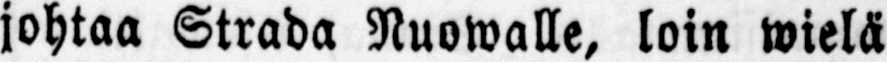johtaa Strada Nuowalle, loin wielä
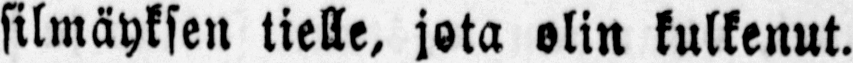silmäyksen tielle, jota olin kulkenut.
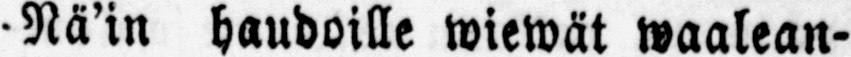-Nä'in haudoille wiewät waalean-
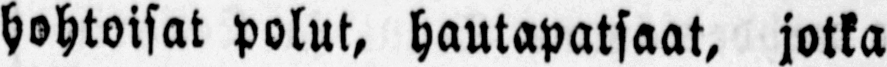hohtoisat polut, hautapatsaat, jotka
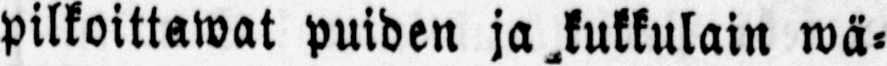pilkoittawat puiden ja Kukkulain wä-
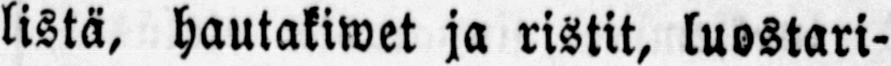listä, hautakiwet ja ristit, luostari-
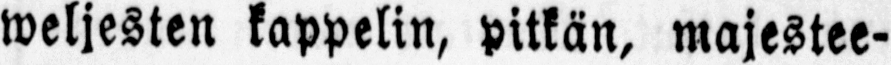weljesten kappelin, pitkän, majestee-
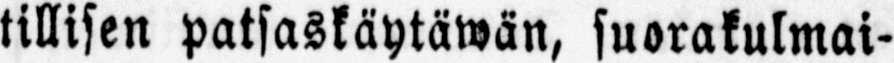tilleen patsaskäytäwän, suorakulmai-
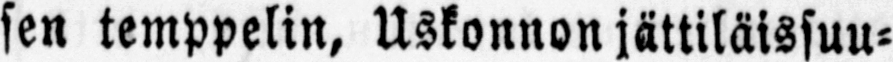sen temppelin, Uskonnon jättiläissuu-
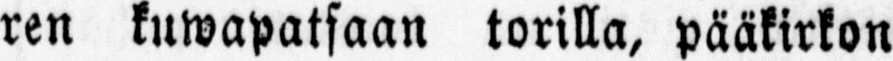ren kuwapatsaan torilla, pääkirkon
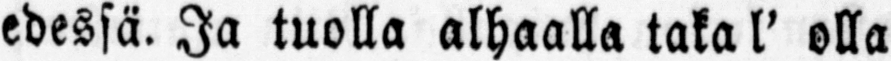edessä. Ja tuolla alhaalla taka l' olla
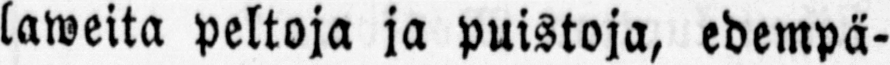laweita peltoja ja puistoja, edempä-
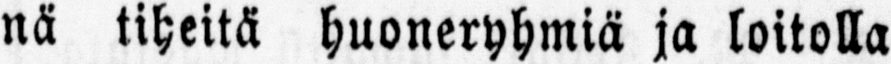nä tiheitä huoneryhmiä ja loitolla
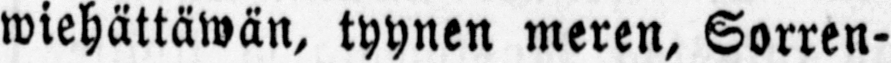wiehättäwän, tyynen meren, Sorren-
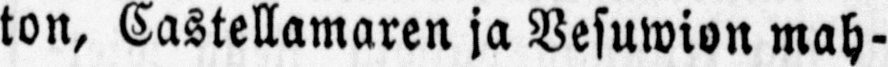ton, Castellamaren ja Vesuwion mah-
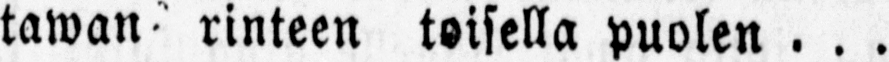tawan rinteen toisella puolen . . .
